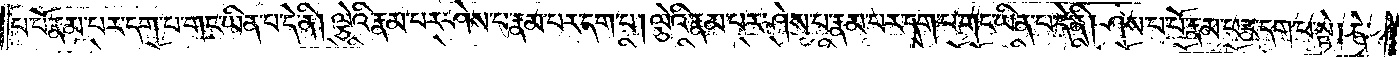པ་པོ་རྣམ་པར་དག་པ་གང་ཡིན་པ་དེ་ནི། ལྕེའི་རྣམ་པར་ཤེས་པ་རྣམ་པར་དག་པ། ལྕེའི་རྣམ་པར་ཤེས་པ་རྣམ་པར་དག་པ་གང་ཡིན་པ་དེ་ནི། ཤེས་པ་པོ་རྣམ་པར་དག་པ་སྟེ། དེ་
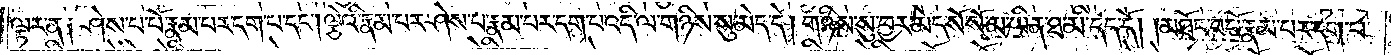ལྟར་ན༑ ཤེས་པ་པོ་རྣམ་པར་དག་པ་དང༌། ལྕེའི་རྣམ་པར་ཤེས་པ་རྣམ་པར་དག་པ་འདི་ལ་གཉིས་སུ་མེད་དེ། གཉིས་སུ་བྱར་མེད་སོ་སོ་མ་ཡིན་ཐ་མི་དད་དོ། །མཐོང་བ་པོ་རྣམ་པར་དག་པ་
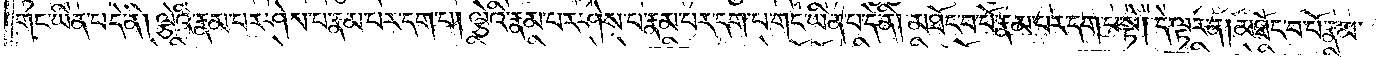གང་ཡིན་པ་དེ་ནི། ལྕེའི་རྣམ་པར་ཤེས་པ་རྣམ་པར་དག་པ། ལྕེའི་རྣམ་པར་ཤེས་པ་རྣམ་པར་དག་པ་གང་ཡིན་པ་དེ་ནི། མཐོང་བ་པོ་རྣམ་པར་དག་པ་སྟེ། དེ་ལྟར་ན། མཐོང་བ་པོ་རྣམ་
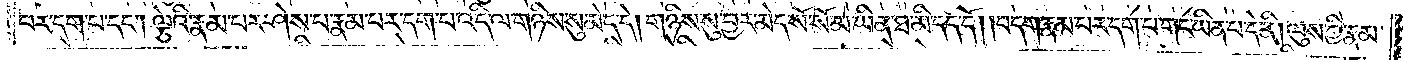པར་དག་པ་དང༌། ལྕེའི་རྣམ་པར་ཤེས་པ་རྣམ་པར་དག་པ་འདི་ལ་གཉིས་སུ་མེད་དེ། གཉིས་སུ་བྱར་མེད་སོ་སོ་མ་ཡིན་ཐ་མི་དད་དོ། །བདག་རྣམ་པར་དག་པ་གང་ཡིན་པ་དེ་ནི། ལུས་ཀྱི་རྣམ་
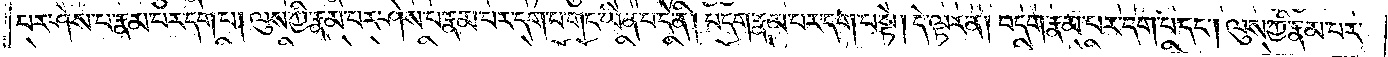པར་ཤེས་པ་རྣམ་པར་དག་པ། ལུས་ཀྱི་རྣམ་པར་ཤེས་པ་རྣམ་པར་དག་པ་གང་ཡིན་པ་དེ་ནི། བདག་རྣམ་པར་དག་པ་སྟེ། དེ་ལྟར་ན། བདག་རྣམ་པར་དག་པ་དང༌། ལུས་ཀྱི་རྣམ་པར་
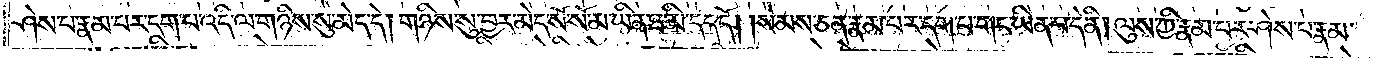ཤེས་པ་རྣམ་པར་དག་པ་འདི་ལ་གཉིས་སུ་མེད་དེ། གཉིས་སུ་བྱར་མེད་སོ་སོ་མ་ཡིན་ཐ་མི་དད་དོ། །སེམས་ཅན་རྣམ་པར་དག་པ་གང་ཡིན་པ་དེ་ནི། ལུས་ཀྱི་རྣམ་པར་ཤེས་པ་རྣམ་
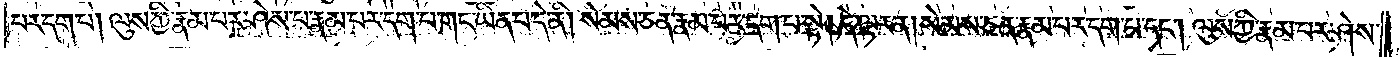པར་དག་པ། ལུས་ཀྱི་རྣམ་པར་ཤེས་པ་རྣམ་པར་དག་པ་གང་ཡིན་པ་དེ་ནི། སེམས་ཅན་རྣམ་པར་དག་པ་སྟེ། དེ་ལྟར་ན། སེམས་ཅན་རྣམ་པར་དག་པ་དང༌། ལུས་ཀྱི་རྣམ་པར་ཤེས་
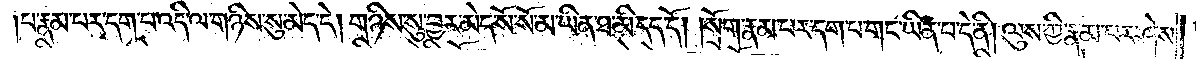པ་རྣམ་པར་དག་པ་འདི་ལ་གཉིས་སུ་མེད་དེ། གཉིས་སུ་བྱར་མེད་སོ་སོ་མ་ཡིན་ཐ་མི་དད་དོ། །སྲོག་རྣམ་པར་དག་པ་གང་ཡིན་པ་དེ་ནི། ལུས་ཀྱི་རྣམ་པར་ཤེས་
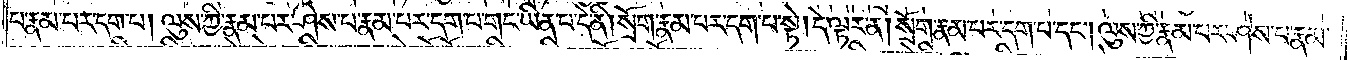པ་རྣམ་པར་དག་པ། ལུས་ཀྱི་རྣམ་པར་ཤེས་པ་རྣམ་པར་དག་པ་གང་ཡིན་པ་དེ་ནི། སྲོག་རྣམ་པར་དག་པ་སྟེ། དེ་ལྟར་ན། སྲོག་རྣམ་པར་དག་པ་དང༌། ལུས་ཀྱི་རྣམ་པར་ཤེས་པ་རྣམ་
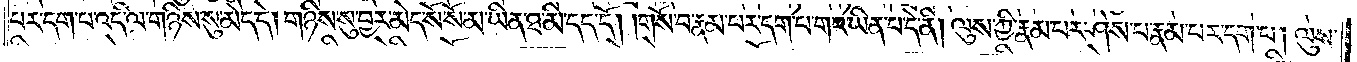པར་དག་པ་འདི་ལ་གཉིས་སུ་མེད་དེ། གཉིས་སུ་བྱར་མེད་སོ་སོ་མ་ཡིན་ཐ་མི་དད་དོ། །གསོ་བ་རྣམ་པར་དག་པ་གང་ཡིན་པ་དེ་ནི། ལུས་ཀྱི་རྣམ་པར་ཤེས་པ་རྣམ་པར་དག་པ། ལུས་
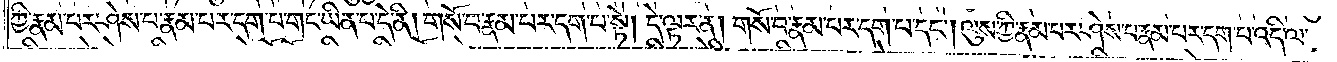ཀྱི་རྣམ་པར་ཤེས་པ་རྣམ་པར་དག་པ་གང་ཡིན་པ་དེ་ནི། གསོ་བ་རྣམ་པར་དག་པ་སྟེ། དེ་ལྟར་ན། གསོ་བ་རྣམ་པར་དག་པ་དང༌། ལུས་ཀྱི་རྣམ་པར་ཤེས་པ་རྣམ་པར་དག་པ་འདི་ལ་
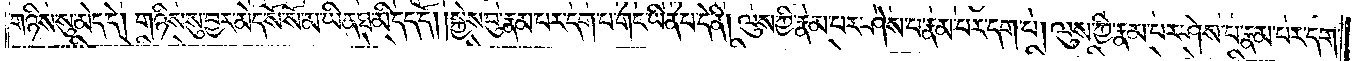གཉིས་སུ་མེད་དེ། གཉིས་སུ་བྱར་མེད་སོ་སོ་མ་ཡིན་ཐ་མི་དད་དོ། །སྐྱེས་བུ་རྣམ་པར་དག་པ་གང་ཡིན་པ་དེ་ནི། ལུས་ཀྱི་རྣམ་པར་ཤེས་པ་རྣམ་པར་དག་པ། ལུས་ཀྱི་རྣམ་པར་ཤེས་པ་རྣམ་པར་དག་
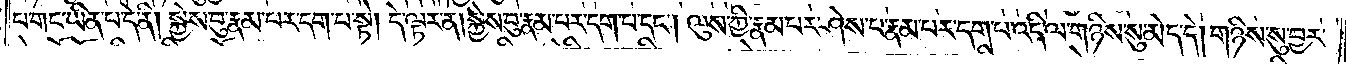པ་གང་ཡིན་པ་དེ་ནི། སྐྱེས་བུ་རྣམ་པར་དག་པ་སྟེ། དེ་ལྟར་ན། སྐྱེས་བུ་རྣམ་པར་དག་པ་དང༌། ལུས་ཀྱི་རྣམ་པར་ཤེས་པ་རྣམ་པར་དག་པ་འདི་ལ་གཉིས་སུ་མེད་དེ། གཉིས་སུ་བྱར་
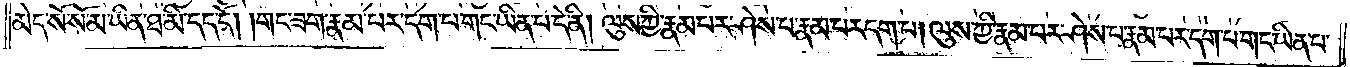མེད་སོ་སོ་མ་ཡིན་ཐ་མི་དད་དོ། །གང་ཟག་རྣམ་པར་དག་པ་གང་ཡིན་པ་དེ་ནི། ལུས་ཀྱི་རྣམ་པར་ཤེས་པ་རྣམ་པར་དག་པ། ལུས་ཀྱི་རྣམ་པར་ཤེས་པ་རྣམ་པར་དག་པ་གང་ཡིན་པ་
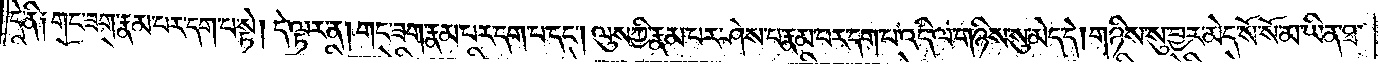དེ་ནི༑ གང་ཟག་རྣམ་པར་དག་པ་སྟེ། དེ་ལྟར་ན། གང་ཟག་རྣམ་པར་དག་པ་དང༌། ལུས་ཀྱི་རྣམ་པར་ཤེས་པ་རྣམ་པར་དག་པ་འདི་ལ་གཉིས་སུ་མེད་དེ། གཉིས་སུ་བྱར་མེད་སོ་སོ་མ་ཡིན་ཐ་
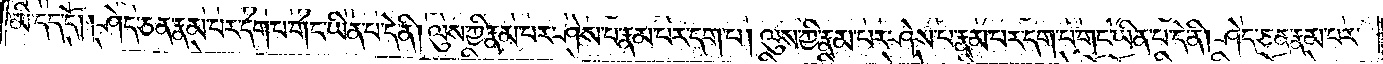མི་དད་དོ། །ཤེད་ཅན་རྣམ་པར་དག་པ་གང་ཡིན་པ་དེ་ནི། ལུས་ཀྱི་རྣམ་པར་ཤེས་པ་རྣམ་པར་དག་པ། ལུས་ཀྱི་རྣམ་པར་ཤེས་པ་རྣམ་པར་དག་པ་གང་ཡིན་པ་དེ་ནི། ཤེད་ཅན་རྣམ་པར་
